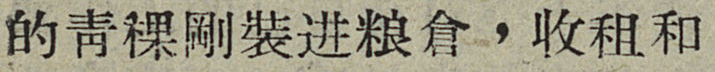的靑稞剛装进粮倉，收租和
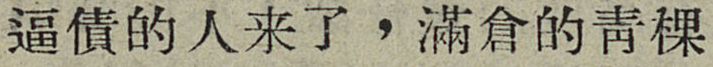逼債的人来了，滿倉的靑稞
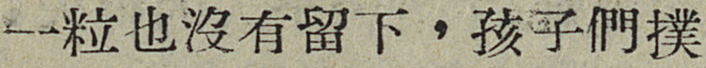一粒也沒有留下，孩子們撲
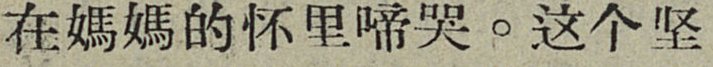在媽媽的怀里啼哭。这个坚
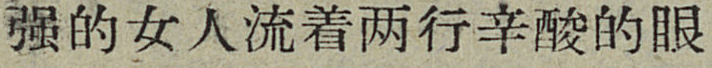强的女人流着两行辛酸的眼
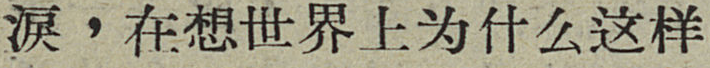淚，在想世界上为什么这样
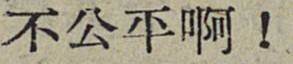不公平啊！
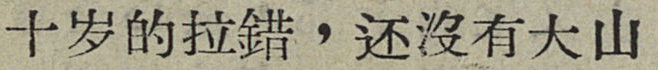十岁的拉錯，还沒有大山
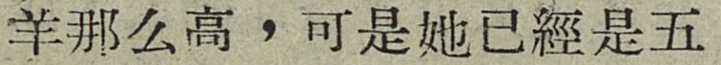羊那么高，可是她已經是五
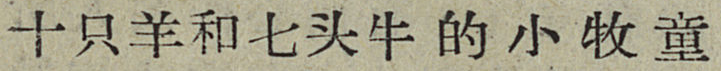十只羊和七头牛的小牧童
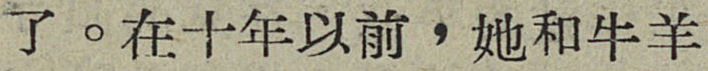了。在十年以前，她和牛羊
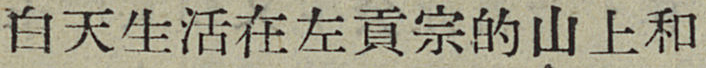白天生活在左貢宗的山上和
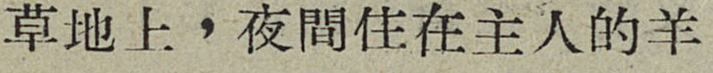草地上，夜間住在主人的羊
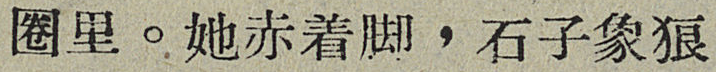圈里。她赤着脚，石子象狼
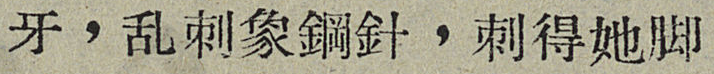牙，乱刺象鋼針，刺得她脚
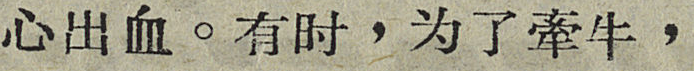心出血。有时，为了牽牛，
